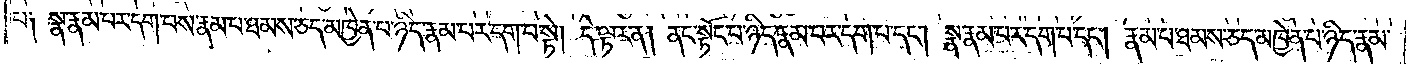པ༑ སྣ་རྣམ་པར་དག་པས་རྣམ་པ་ཐམས་ཅད་མཁྱེན་པ་ཉིད་རྣམ་པར་དག་པ་སྟེ། དེ་ལྟར་ན། ནང་སྟོང་པ་ཉིད་རྣམ་པར་དག་པ་དང༌། སྣ་རྣམ་པར་དག་པ་དང༌། རྣམ་པ་ཐམས་ཅད་མཁྱེན་པ་ཉིད་རྣམ་
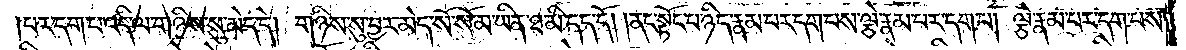པར་དག་པ་འདི་ལ་གཉིས་སུ་མེད་དེ། གཉིས་སུ་བྱར་མེད་སོ་སོ་མ་ཡིན་ཐ་མི་དད་དོ། །ནང་སྟོང་པ་ཉིད་རྣམ་པར་དག་པས་ལྕེ་རྣམ་པར་དག་པ། ལྕེ་རྣམ་པར་དག་པས་
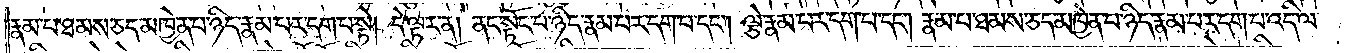རྣམ་པ་ཐམས་ཅད་མཁྱེན་པ་ཉིད་རྣམ་པར་དག་པ་སྟེ། དེ་ལྟར་ན། ནང་སྟོང་པ་ཉིད་རྣམ་པར་དག་པ་དང༌། ལྕེ་རྣམ་པར་དག་པ་དང༌། རྣམ་པ་ཐམས་ཅད་མཁྱེན་པ་ཉིད་རྣམ་པར་དག་པ་འདི་ལ་
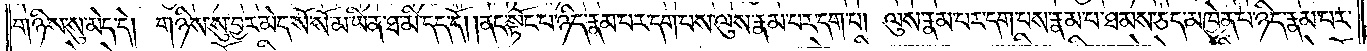གཉིས་སུ་མེད་དེ། གཉིས་སུ་བྱར་མེད་སོ་སོ་མ་ཡིན་ཐ་མི་དད་དོ། །ནང་སྟོང་པ་ཉིད་རྣམ་པར་དག་པས་ལུས་རྣམ་པར་དག་པ། ལུས་རྣམ་པར་དག་པས་རྣམ་པ་ཐམས་ཅད་མཁྱེན་པ་ཉིད་རྣམ་པར་
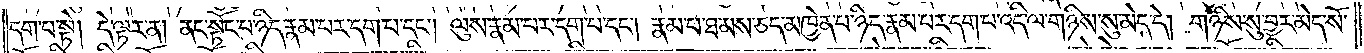དག་པ་སྟེ། དེ་ལྟར་ན། ནང་སྟོང་པ་ཉིད་རྣམ་པར་དག་པ་དང༌། ལུས་རྣམ་པར་དག་པ་དང༌། རྣམ་པ་ཐམས་ཅད་མཁྱེན་པ་ཉིད་རྣམ་པར་དག་པ་འདི་ལ་གཉིས་སུ་མེད་དེ། གཉིས་སུ་བྱར་མེད་སོ་
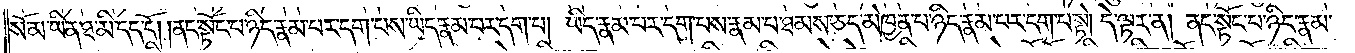སོ་མ་ཡིན་ཐ་མི་དད་དོ། །ནང་སྟོང་པ་ཉིད་རྣམ་པར་དག་པས་ཡིད་རྣམ་པར་དག་པ། ཡིད་རྣམ་པར་དག་པས་རྣམ་པ་ཐམས་ཅད་མཁྱེན་པ་ཉིད་རྣམ་པར་དག་པ་སྟེ། དེ་ལྟར་ན། ནང་སྟོང་པ་ཉིད་རྣམ་
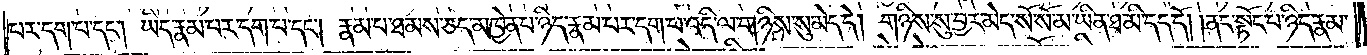པར་དག་པ་དང༌། ཡིད་རྣམ་པར་དག་པ་དང༌། རྣམ་པ་ཐམས་ཅད་མཁྱེན་པ་ཉིད་རྣམ་པར་དག་པ་འདི་ལ་གཉིས་སུ་མེད་དེ། གཉིས་སུ་བྱར་མེད་སོ་སོ་མ་ཡིན་ཐ་མི་དད་དོ། །ནང་སྟོང་པ་ཉིད་རྣམ་
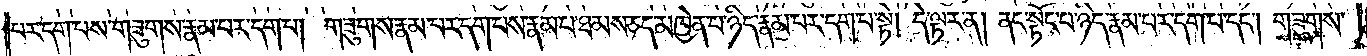པར་དག་པས་གཟུགས་རྣམ་པར་དག་པ། གཟུགས་རྣམ་པར་དག་པས་རྣམ་པ་ཐམས་ཅད་མཁྱེན་པ་ཉིད་རྣམ་པར་དག་པ་སྟེ། དེ་ལྟར་ན། ནང་སྟོང་པ་ཉིད་རྣམ་པར་དག་པ་དང༌། གཟུགས་
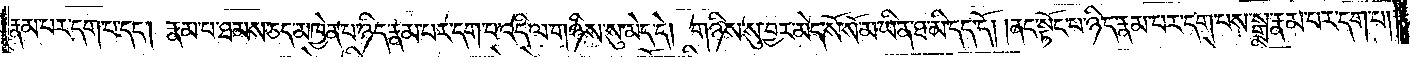རྣམ་པར་དག་པ་དང༌། རྣམ་པ་ཐམས་ཅད་མཁྱེན་པ་ཉིད་རྣམ་པར་དག་པ་འདི་ལ་གཉིས་སུ་མེད་དེ། གཉིས་སུ་བྱར་མེད་སོ་སོ་མ་ཡིན་ཐ་མི་དད་དོ། །ནང་སྟོང་པ་ཉིད་རྣམ་པར་དག་པས་སྒྲ་རྣམ་པར་དག་པ།
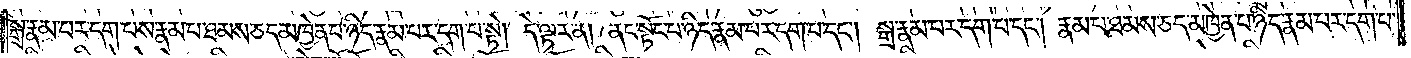སྒྲ་རྣམ་པར་དག་པས་རྣམ་པ་ཐམས་ཅད་མཁྱེན་པ་ཉིད་རྣམ་པར་དག་པ་སྟེ། དེ་ལྟར་ན། ནང་སྟོང་པ་ཉིད་རྣམ་པར་དག་པ་དང༌། སྒྲ་རྣམ་པར་དག་པ་དང༌། རྣམ་པ་ཐམས་ཅད་མཁྱེན་པ་ཉིད་རྣམ་པར་དག་པ་
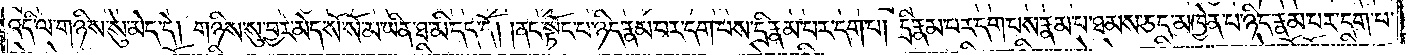འདི་ལ་གཉིས་སུ་མེད་དེ། གཉིས་སུ་བྱར་མེད་སོ་སོ་མ་ཡིན་ཐ་མི་དད་དོ། །ནང་སྟོང་པ་ཉིད་རྣམ་པར་དག་པས་དྲི་རྣམ་པར་དག་པ། དྲི་རྣམ་པར་དག་པས་རྣམ་པ་ཐམས་ཅད་མཁྱེན་པ་ཉིད་རྣམ་པར་དག་པ་
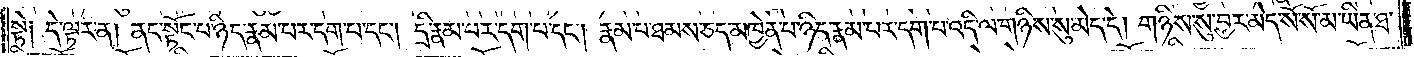སྟེ༑ དེ་ལྟར་ན། ནང་སྟོང་པ་ཉིད་རྣམ་པར་དག་པ་དང༌། དྲི་རྣམ་པར་དག་པ་དང༌། རྣམ་པ་ཐམས་ཅད་མཁྱེན་པ་ཉིད་རྣམ་པར་དག་པ་འདི་ལ་གཉིས་སུ་མེད་དེ། གཉིས་སུ་བྱར་མེད་སོ་སོ་མ་ཡིན་ཐ་
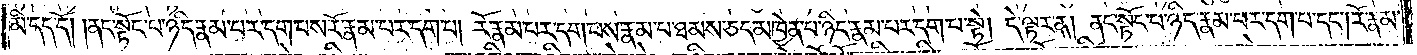མི་དད་དོ། །ནང་སྟོང་པ་ཉིད་རྣམ་པར་དག་པས་རོ་རྣམ་པར་དག་པ། རོ་རྣམ་པར་དག་པས་རྣམ་པ་ཐམས་ཅད་མཁྱེན་པ་ཉིད་རྣམ་པར་དག་པ་སྟེ། དེ་ལྟར་ན། ནང་སྟོང་པ་ཉིད་རྣམ་པར་དག་པ་དང༌། རོ་རྣམ་
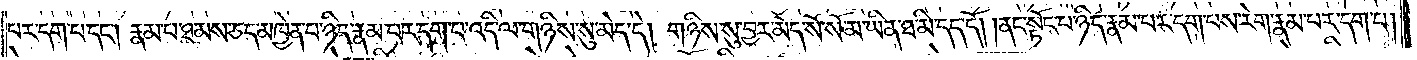པར་དག་པ་དང༌། རྣམ་པ་ཐམས་ཅད་མཁྱེན་པ་ཉིད་རྣམ་པར་དག་པ་འདི་ལ་གཉིས་སུ་མེད་དེ། གཉིས་སུ་བྱར་མེད་སོ་སོ་མ་ཡིན་ཐ་མི་དད་དོ། །ནང་སྟོང་པ་ཉིད་རྣམ་པར་དག་པས་རེག་རྣམ་པར་དག་པ།
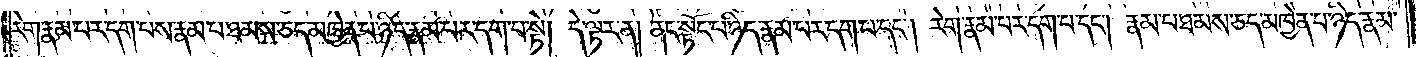རེག་རྣམ་པར་དག་པས་རྣམ་པ་ཐམས་ཅད་མཁྱེན་པ་ཉིད་རྣམ་པར་དག་པ་སྟེ། དེ་ལྟར་ན། ནང་སྟོང་པ་ཉིད་རྣམ་པར་དག་པ་དང༌། རེག་རྣམ་པར་དག་པ་དང༌། རྣམ་པ་ཐམས་ཅད་མཁྱེན་པ་ཉིད་རྣམ་
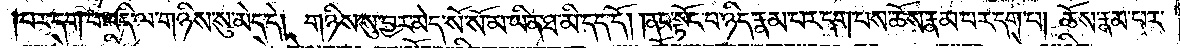པར་དག་པ་འདི་ལ་གཉིས་སུ་མེད་དེ། གཉིས་སུ་བྱར་མེད་སོ་སོ་མ་ཡིན་ཐ་མི་དད་དོ། །ནང་སྟོང་པ་ཉིད་རྣམ་པར་དག་པས་ཆོས་རྣམ་པར་དག་པ། ཆོས་རྣམ་པར་
